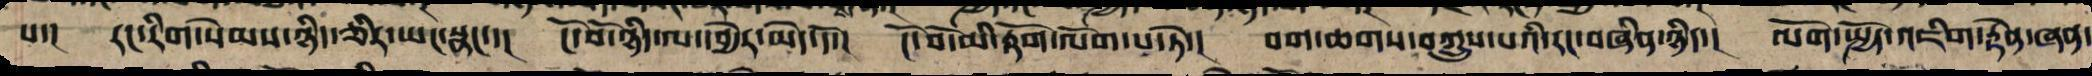པ་། རང་རིག་སེམས་ཉིད་ཅིར་ཡང་སྣང་་། ངོ་བོ་ཉིད་ལ་དབྱེར་མེད་དོ་། ངོ་བོ་མི་རྟོག་ལོག་པ་སཏེ་། བག་ཆགས་བཀྲུས་པའི་རང་བཞིན་ཉིད་། ལོག་སྤྱོད་འཇིག་རྟེན་ཞན་
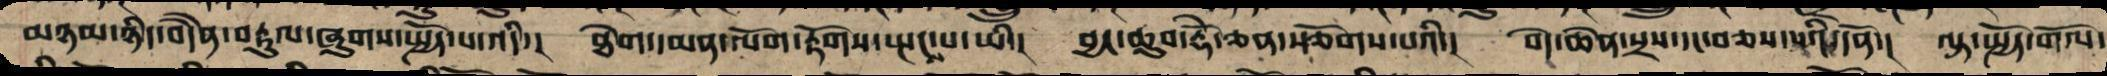མཉམ་ཉིད་བདཻན་བརྟུལ་ཞུགས་སྤྱོད་པ་འདི་། ཐེག་དམན་ལོག་རྟོག་སྤངས་པ་ཡི་། བྱང་ཆུབ་རྡོེ་ཅན་སོགས་པའི་། བདེ་ཆེན་སྲས་དང་བཅས་པའི་དོན་། ལྟ་སྤྱོད་གོལ་
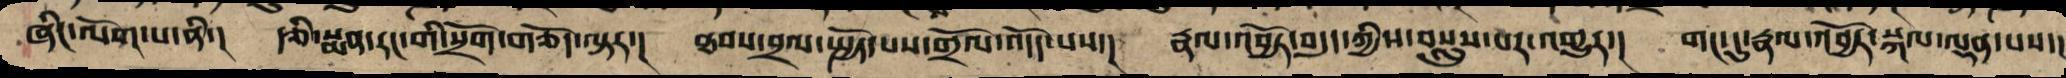ཞིང་ལོག་པ་ནི་། རྩི་སྨན་རང་གི་སྲོག་གཅོད་ལྟར་། ཐབས་བྲལ་སྤྱོད་པས་གྲོལ་འདོད་པའི་། རྣལ་འབྱོར་བདུད་ཀྱིས་བསླུས་པར་འགྱུར་། གང་དུ་རྣལ་འབྱོར་སྐལ་ལྡན་པས་།
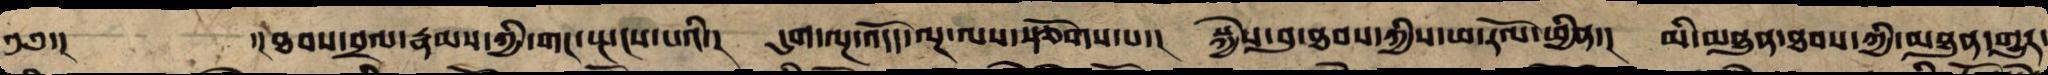༄༅་།  ་།ཐབས་བྲལ་རྣམས་ཀྱིས་གང་སྤངས་པའི་། དུག་ལྔ་འདོད་ལྔ་ལ་སོགས་པ་། སྐྱེས་བུ་ཐབས་ཀྱི་ཕ་རོལ་ཕྱིན་། མི་མཐུན་ཐབས་ཀྱིས་མཐུན་འགྱུར་
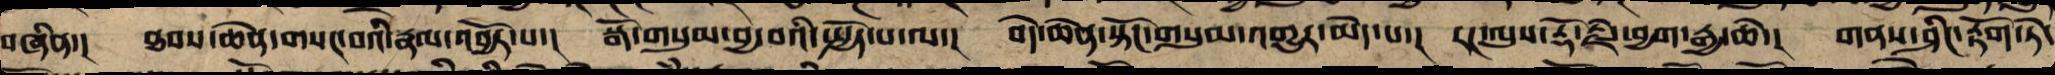བཞིན་། ཐབས་ཆེན་གསང་བའི་རྣལ་འབྱོར་པས་། སྒོ་གསུམ་བྱ་བའི་སྤྱོད་པ་ལ་། བདེ་ཆེན་སྟོང་གསུམ་འགྱུར་མེད་པ་། རང་ལུས་རྡོ་རྗེ་ཕྱག་རྒྱ་ཆེ་། གནས་ཤིང་རྟོག་ཏེ་
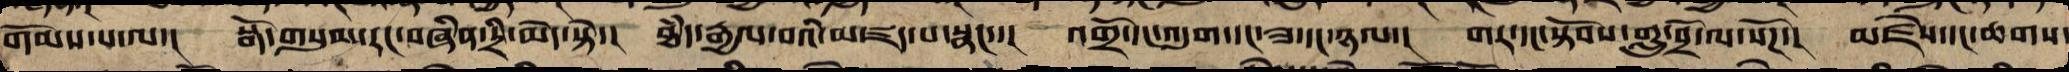གོམས་པ་ལ་། སྒོ་གསུམ་རང་བཞིན་དྲི་མེད་དེ་། ཐཾད་རྒྱལ་བའི་མཛད་པར་སྣང་་། འགྲོ་དང་འདུག་དང་ཟ་དང་ཉལ་། གར་དང་སྟོབས་གླུ་བྲོ་ལ་སོཌ་། མཛེས་དང་ཆགས་
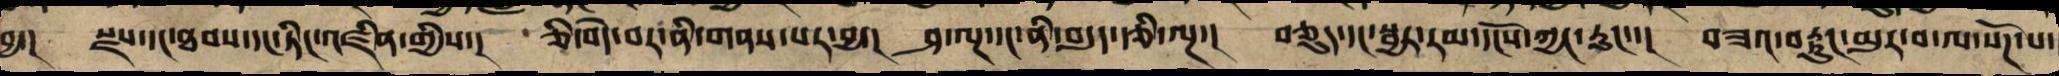བྱ་། སྫས་དང་ཐབས་དང་ཏིང་འཛིན་གྱིས་། ཅི་བདེ་བར་ནི་གནས་པར་བྱ་། ཤ་ལྔ་དང་ནི་བདུད་རྩི་ལྔ་། བཅུད་དང་སྦྱར་རམ་དངོས་ཀྱང་རུང་་། བཟའ་བཏུང་མུར་བ་ལ་སོཌ་པ་།
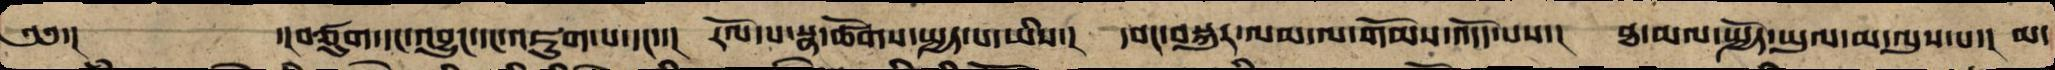༄༅་།  ་།བཙུག་དང་འབྱུང་དང་འཇུག་པ་དང་་། རོལ་པ་སྣ་ཚོགས་སྤྱད་པ་ཡིས་། དབང་བསྐུར་ལམ་ལ་གོམས་འདོད་པས་། ཐ་མལ་སྤྱོད་ཡུལ་མ་ལུས་པ་། མ་
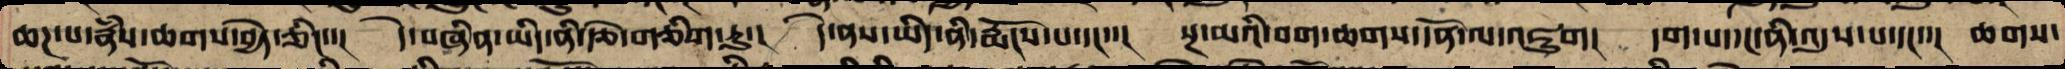ཆཌ་པ་རྣཾས་ཆགས་བྱེད་ཅིང་་། དེ་བཞིན་ཡིད་ནི་རྩེ་གཅིག་ཏུ་། དེ་ནས་ཡིད་ནི་རྨོངས་པ་དང་་། སྔ་མའི་བག་ཆགས་དོན་ལ་འཇུག། དག་པ་དང་ནི་འདུས་པ་དང་་། ཆགས་
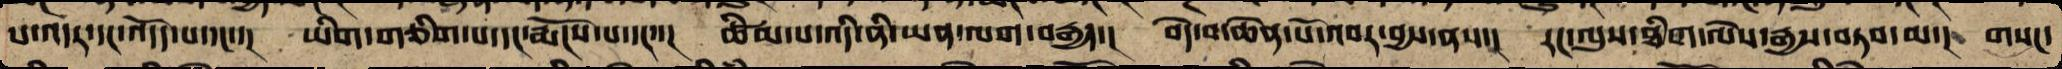པ་འདར་དང་འདོད་པ་དང་།་ ཡིག་གཅིག་པ་དང་རྨོངས་པ་དང་་། ཚིམས་པ་འདི་ནི་ཡན་ལག་བརྒྱད་། བདེ་བ་ཆེན་པོ་འབར་བྱས་ནས་། རང་ལུས་ཐིག་ལེ་རྒྱས་བཏབ་ལ་། གསང་
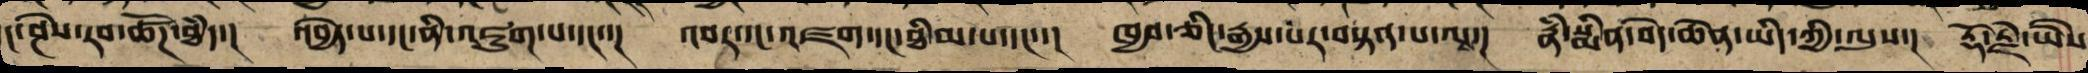ང་ཤེས་རབ་ཚོཌ་ཐཾད་། འབྱེད་པ་དང་ནི་འཇུག་པ་དང་་། འབར་དང་འཛག་དང་ཐིམ་པ་དང་་། ཁྱབ་ཅིང་རྒྱས་པར་བསྟན་པ་ལས་། རྣཾ་སྨིན་བདེ་ཆེན་ཡིད་ཀྱི་ལུས་། རྡོ་རྗེ་ཡཻས
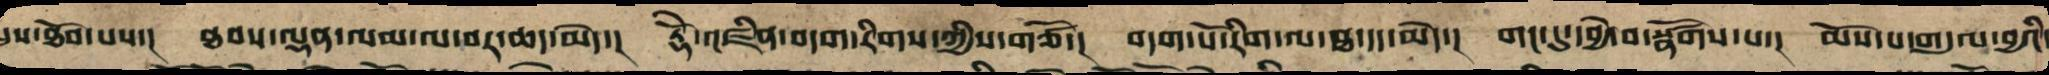ལུས་ཐོབ་པས་། ཐབས་ལྡན་ལམ་ལ་བར་ཆད་མེ་ད། རྡོེ་འཛིན་བདག་རིགས་ཀྱི་གཙོ་། བདག་པོ་རིགས་ལ་ཐ་དད་མེད་། །གང་དུ་དབྱེ་བ་སྣ་ཚོགས་པ་། མོས་པ་གདུལ་བྱའི་
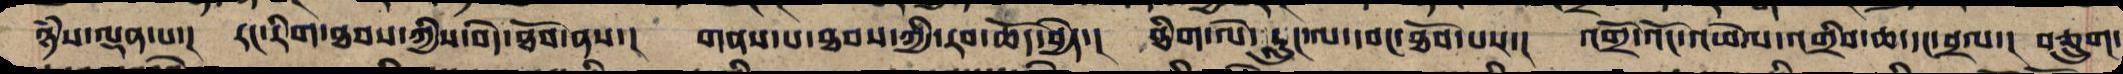ཉཾས་ལྡན་པ་། རང་རིག་ཐབས་ཀྱི་བདེ་ཐོབ་ནས་། གནས་པ་ཐབས་ཀྱི་བར་ཆོད་བྱེད་། ཐིག་ལེ་རླུང་ལ་དབང་ཐོབ་པས་། འགྲོ་འོང་འཕེལ་འགྲིབ་ཆ་དང་བྲལ་། བཅྲུག་
